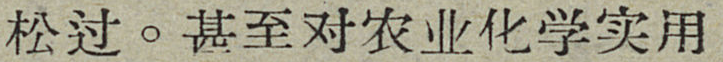松过。甚至对农业化学实用
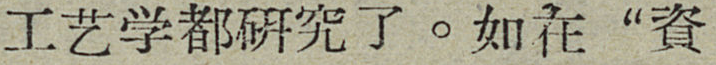工艺学都研究了。如在“資
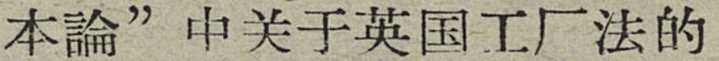本論”中关于英国工厂法的
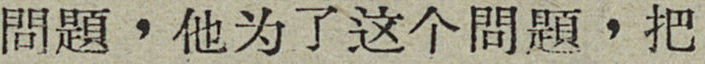問題，他为了这个問題，把
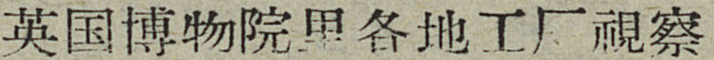英国博物院里各地工厂視察
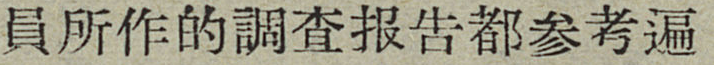員所作的調查报告都参考遍
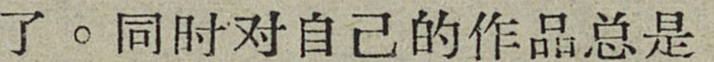了。同时对自己的作品总是
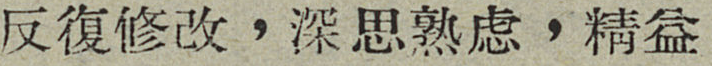反復修改，深思熟虑，精益
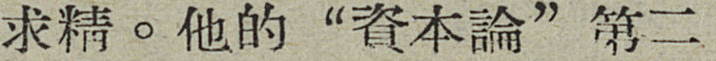求精。他的“資本論”第二
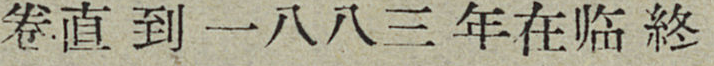卷直到一八八三年在临終
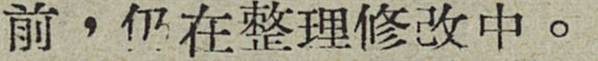前，仍在整理修改中。
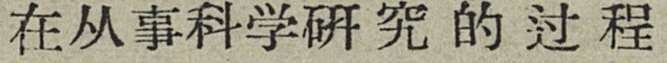在从事科学研究的过程
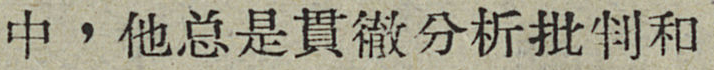中，他总是貫徹分析批判和
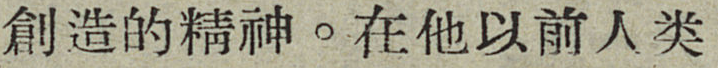創造的精神。在他以前人类
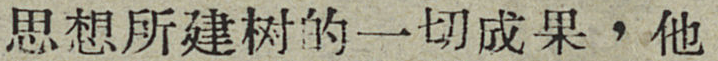思想所建树的一切成果，他
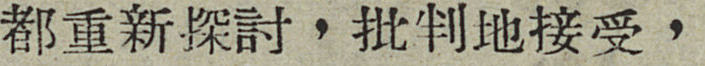都重新探討，批判地接受，
